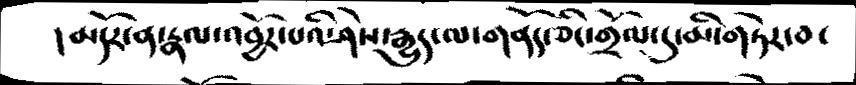།མདོར་ན་རྣལ་འབྱོར་པའི་ཤེས་རྒྱུད་ལ་གནོད་ཅིང་གྲོལ་དུ་མི་གཏེར་བ་
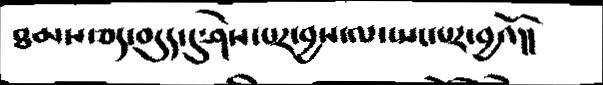ཐམས་ཅད་བདུད་དུ་ཤེས་པར་བྱས་ལ་སྤང་པར་བྱའོ།།
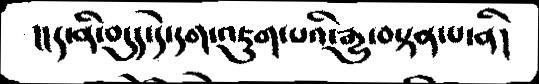།།ད་ནི་བདུད་དེ་དག་འཇུག་པའི་རྒྱུ་བསྟན་པ་ནི།
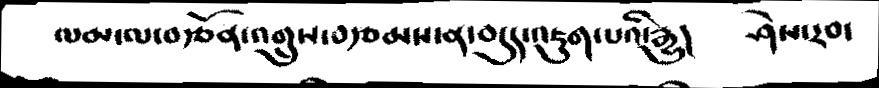ལམ་ལ་བརྩོན་འགྲུས་བརྩམས་ན་བདུད་འཇུག་པའི་རྒྱུ།  ཤེས་རབ་
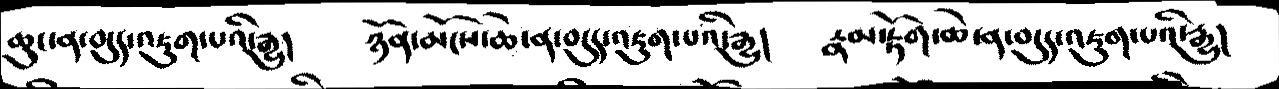ཆུང་ན་བདུད་འཇུག་པའི་རྒྱུ།  ཉོན་མོངས་ཆེ་ན་བདུད་འཇུག་པའི་རྒྱུ།  རྣམ་རྟོག་ཆེ་ན་བདུད་འཇུག་པའི་རྒྱུ།
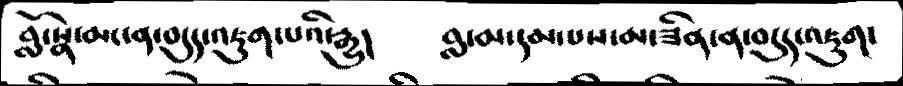བློ་སྣེ་མང་ན་བདུད་འཇུག་པའི་རྒྱུ།   བླ་མ་དམ་པས་མ་ཟིན་ན་བདུད་འཇུག་
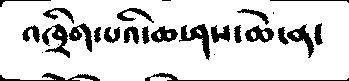འཁྲིག་པའི་ཆ་ཤས་ཆེ་ན།
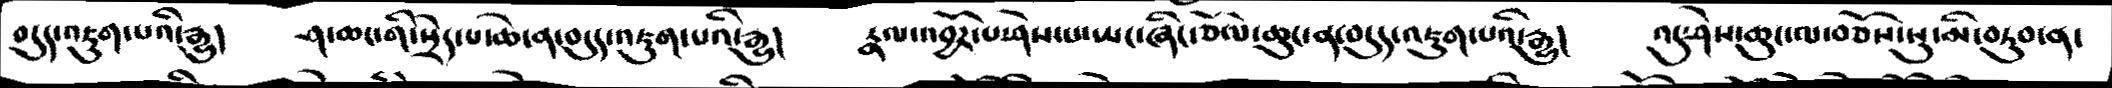བདུད་འཇུག་པའི་རྒྱུ།    ཤ་ཆང་གི་སྲེད་པ་ཆེ་ན་བདུད་འཇུག་པའི་རྒྱུ།   རྣལ་འབྱོར་པ་ཤེས་པ་ཡང་ཞིང་ཅོལ་ཆུང་ན་བདུད་འཇུག་པའི་རྒྱུ།   འདུ་ཤེས་ཆུང་ལ་བཅོས་སུ་མི་བཏུབ་ན་
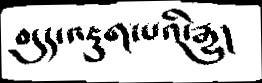བདུད་འཇུག་པའི་རྒྱུ།
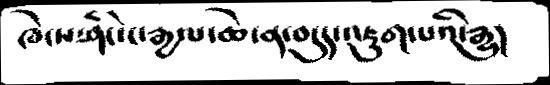ཁེངས་ཤིང་ང་རྒྱལ་ཆེ་ན་བདུད་འཇུག་པའི་རྒྱུ།
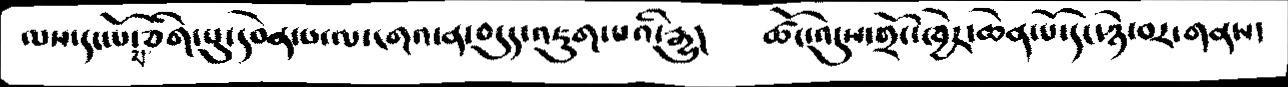ལས་དང་པོ་པ་ཅིག་པུ་དབེན་པ་ལ་དགའ་ན་བདུད་འཇུག་པའི་རྒྱུ།     ཚོང་འདུས་གྲོང་ཁྱེར་ཆེན་པོ་དང་ཉེ་བར་གནས།
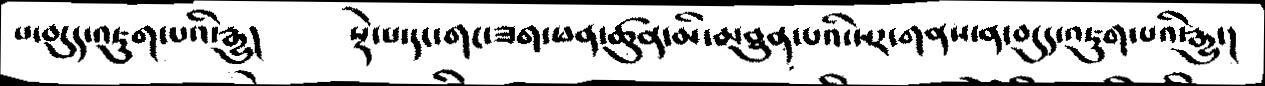པ་བདུད་འཇུག་པའི་རྒྱུ།     སྡེ་པ་དང་གང་ཟག་ཕན་ཚུན་མི་མཐུན་པའི་སར་གནས་ན་བདུད་འཇུག་པའི་རྒྱུ་།
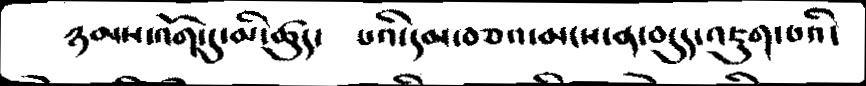ཉམས་འོག་དུ་མི་ཚུད་  པའི་དམ་བཅའ་མངས་ན་བདུད་འཇུག་པའི་
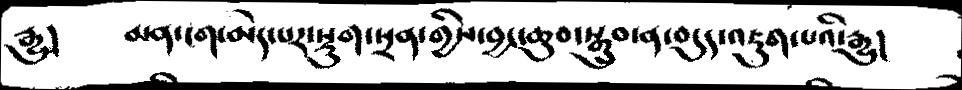རྒྱུ།  མན་ངག་མེད་པར་སྡུག་སྲན་གྱིས་བྱང་ཆུབ་སྒྲུབ་ན་བདུད་འཇུག་པའི་རྒྱུ།
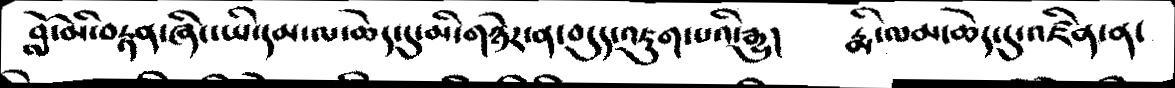བློ་མི་བརྟན་ཞིང་ཡི་དམ་ལ་ཆེད་དུ་མི་གཉེར་ན་བདུད་འཇུག་པའི་རྒྱུ།  རྨི་ལམ་ཆེད་དུ་འཛིན་ན་
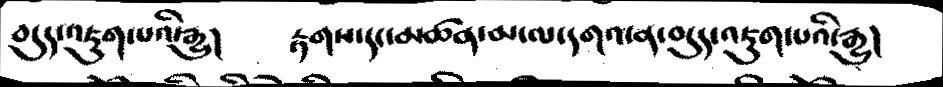བདུད་འཇུག་པའི་རྒྱུ།  རྟགས་དང་མཚན་མ་ལ་དགའ་ན་བདུད་འཇུག་པའི་རྒྱུ།
